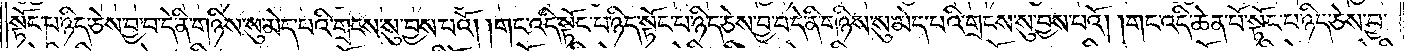སྟོང་པ་ཉིད་ཅེས་བྱ་བ་དེ་ནི་གཉིས་སུ་མེད་པའི་གྲངས་སུ་བྱས་པའོ། །གང་འདི་སྟོང་པ་ཉིད་སྟོང་པ་ཉིད་ཅེས་བྱ་བ་དེ་ནི་གཉིས་སུ་མེད་པའི་གྲངས་སུ་བྱས་པའོ། །གང་འདི་ཆེན་པོ་སྟོང་པ་ཉིད་ཅེས་བྱ་
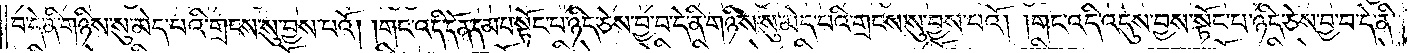བ་དེ་ནི་གཉིས་སུ་མེད་པའི་གྲངས་སུ་བྱས་པའོ། །གང་འདི་དོན་དམ་པ་སྟོང་པ་ཉིད་ཅེས་བྱ་བ་དེ་ནི་གཉིས་སུ་མེད་པའི་གྲངས་སུ་བྱས་པའོ། །གང་འདི་འདུས་བྱས་སྟོང་པ་ཉིད་ཅེས་བྱ་བ་དེ་ནི་
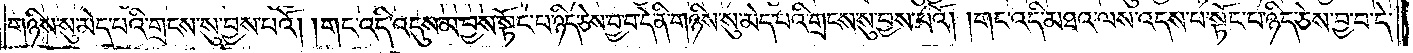གཉིས་སུ་མེད་པའི་གྲངས་སུ་བྱས་པའོ། །གང་འདི་འདུས་མ་བྱས་སྟོང་པ་ཉིད་ཅེས་བྱ་བ་དེ་ནི་གཉིས་སུ་མེད་པའི་གྲངས་སུ་བྱས་པའོ། །གང་འདི་མཐའ་ལས་འདས་པ་སྟོང་པ་ཉིད་ཅེས་བྱ་བ་དེ་
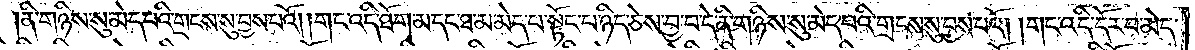ནི་གཉིས་སུ་མེད་པའི་གྲངས་སུ་བྱས་པའོ། །གང་འདི་ཐོག་མ་དང་ཐ་མ་མེད་པ་སྟོང་པ་ཉིད་ཅེས་བྱ་བ་དེ་ནི་གཉིས་སུ་མེད་པའི་གྲངས་སུ་བྱས་པའོ། །གང་འདི་དོར་བ་མེད་
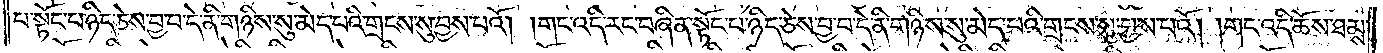པ་སྟོང་པ་ཉིད་དེས་བྱ་བ་དེ་ནི་གཉིས་སུ་མེད་པའི་གྲངས་སུ་བྱས་པའོ། །གང་འདི་རང་བཞིན་སྟོང་པ་ཉིད་ཅེས་བྱ་བ་དེ་ནི་གཉིས་སུ་མེད་པའི་གྲངས་སུ་བྱས་པའོ། །གང་འདི་ཆོས་ཐམས་
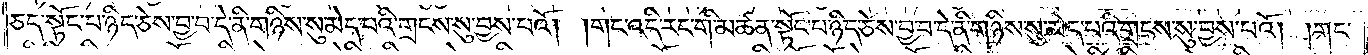ཅད་སྟོང་པ་ཉིད་ཅེས་བྱ་བ་དེ་ནི་གཉིས་སུ་མེད་པའི་གྲངས་སུ་བྱས་པའོ། །གང་འདི་རང་གི་མཚན་ཉིད་སྟོང་པ་ཉིད་ཅེས་བྱ་བ་དེ་ནི་གཉིས་སུ་མེད་པའི་གྲངས་སུ་བྱས་པའོ། །གང་
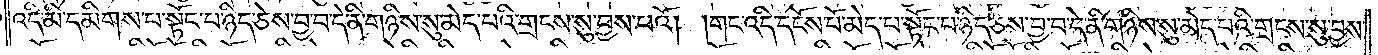འདི་མི་དམིགས་པ་སྟོང་པ་ཉིད་ཅེས་བྱ་བ་དེ་ནི་གཉིས་སུ་མེད་པའི་གྲངས་སུ་བྱས་པའོ། །གང་འདི་དངོས་པོ་མེད་པ་སྟོང་པ་ཉིད་ཅེས་བྱ་བ་དེ་ནི་གཉིས་སུ་མེད་པའི་གྲངས་སུ་བྱས་
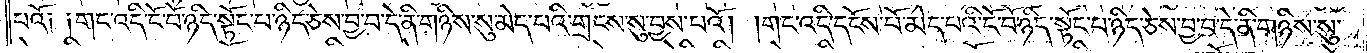པའོ། །གང་འདི་ངོ་བོ་ཉིད་སྟོང་པ་ཉིད་ཅེས་བྱ་བ་དེ་ནི་གཉིས་སུ་མེད་པའི་གྲངས་སུ་བྱས་པའོ། །གང་འདི་དངོས་པོ་མེད་པའི་ངོ་བོ་ཉིད་སྟོང་པ་ཉིད་ཅེས་བྱ་བ་དེ་ནི་གཉིས་སུ་
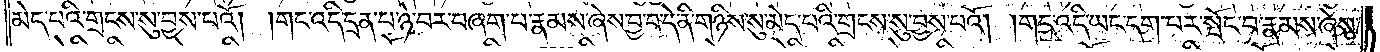མེད་པའི་གྲངས་སུ་བྱས་པའོ། །གང་འདི་དྲན་པ་ཉེ་བར་བཞག་པ་རྣམས་ཞེས་བྱ་བ་དེ་ནི་གཉིས་སུ་མེད་པའི་གྲངས་སུ་བྱས་པའོ། །གང་འདི་ཡང་དག་པར་སྤོང་བ་རྣམས་ཞེས་
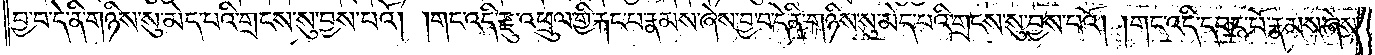བྱ་བ་དེ་ནི་གཉིས་སུ་མེད་པའི་གྲངས་སུ་བྱས་པའོ། །གང་འདི་རྫུ་འཕྲུལ་གྱི་རྐང་པ་རྣམས་ཞེས་བྱ་བ་དེ་ནི་གཉིས་སུ་མེད་པའི་གྲངས་སུ་བྱས་པའོ། །གང་འདི་དབང་པོ་རྣམས་ཞེས་
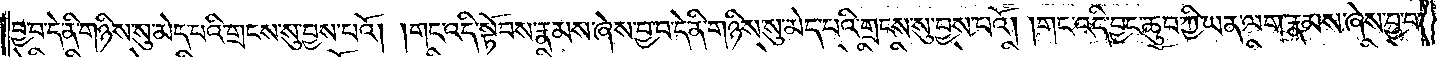བྱ་བ་དེ་ནི་གཉིས་སུ་མེད་པའི་གྲངས་སུ་བྱས་པའོ། །གང་འདི་སྟོབས་རྣམས་ཞེས་བྱ་བ་དེ་ནི་གཉིས་སུ་མེད་པའི་གྲངས་སུ་བྱས་པའོ། །གང་འདི་བྱང་ཆུབ་ཀྱི་ཡན་ལག་རྣམས་ཞེས་བྱ་བ་
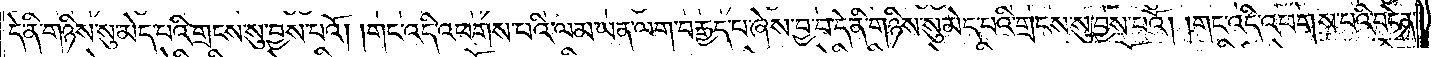དེ་ནི་གཉིས་སུ་མེད་པའི་གྲངས་སུ་བྱས་པའོ། །གང་འདི་འཕགས་པའི་ལམ་ཡན་ལག་བརྒྱད་པ་ཞེས་བྱ་བ་དེ་ནི་གཉིས་སུ་མེད་པའི་གྲངས་སུ་བྱས་པའོ། །གང་འདི་འཕགས་པའི་བདེན་
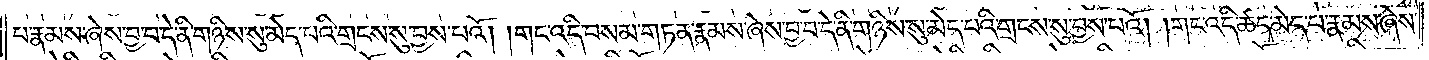པ་རྣམས་ཞེས་བྱ་བ་དེ་ནི་གཉིས་སུ་མེད་པའི་གྲངས་སུ་བྱས་པའོ། །གང་འདི་བསམ་གཏན་རྣམས་ཞེས་བྱ་བ་དེ་ནི་གཉིས་སུ་མེད་པའི་གྲངས་སུ་བྱས་པའོ། །གང་འདི་ཚད་མེད་པ་རྣམས་ཞེས་
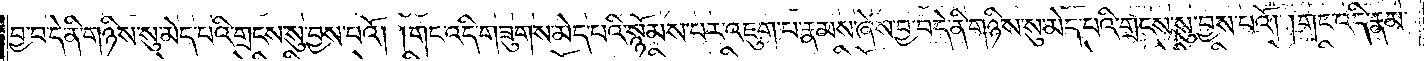བྱ་བ་དེ་ནི་གཉིས་སུ་མེད་པའི་གྲངས་སུ་བྱས་པའོ། །གང་འདི་གཟུགས་མེད་པའི་སྙོམས་པར་འཇུག་པ་རྣམས་ཞེས་བྱ་བ་དེ་ནི་གཉིས་སུ་མེད་པའི་གྲངས་སུ་བྱས་པའོ། །གང་འདི་རྣམ་
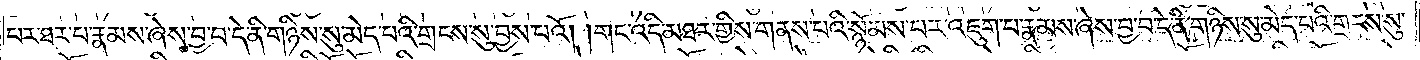པར་ཐར་པ་རྣམས་ཞེས་བྱ་བ་དེ་ནི་གཉིས་སུ་མེད་པའི་གྲངས་སུ་བྱས་པའོ། །གང་འདི་མཐར་གྱིས་གནས་པའི་སྙོམས་པར་འཇུག་པ་རྣམས་ཞེས་བྱ་བ་དེ་ནི་གཉིས་སུ་མེད་པའི་གྲངས་སུ་
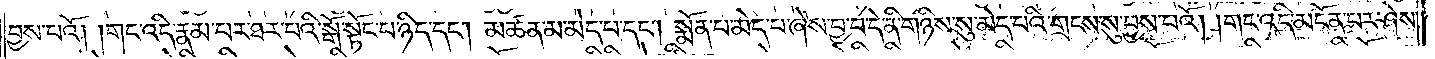བྱས་པའོ། །གང་འདི་རྣམ་པར་ཐར་པའི་སྒོ་སྟོང་པ་ཉིད་དང༌། མཚན་མ་མེད་པ་དང༌། སྨོན་པ་མེད་པ་ཞེས་བྱ་བ་དེ་ནི་གཉིས་སུ་མེད་པའི་གྲངས་སུ་བྱས་པའོ། །གང་འདི་མངོན་པར་ཤེས་
